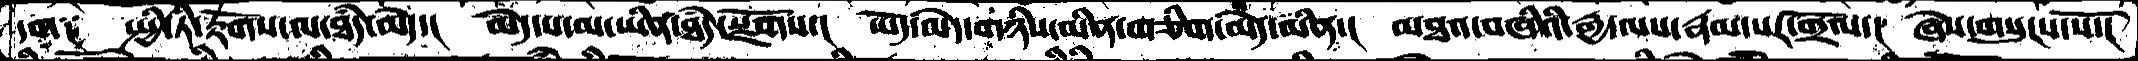དག༑  སྤྱི་ཏི་རྟོགས་ལ་ཐཾད་མེད་།  མེད་པ་མ་ཡིན་ཐཾད་སྫོགས་།  ཡོད་མེད་གཉིས་མིན་གཅིག་མེད་མིན་།  མཐའ་བཞིའི་རྒྱ་ལས་རྣམ་པར་གྲོལ་།  ཞེས་གསུངས་སོ་།
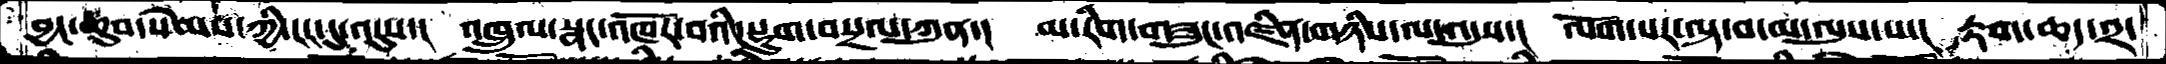བྱང་ཆུབ་སེམས་ཀྱི་ངང་དུ་འདུས་།  འཁྲུལ་སྣང་འཁོར་བའི་སྡུག་བསྔལ་ཀུན་།  མ་རིག་གཟུང་འཛིན་གཉིས་ལ་འདུས་།  ལོག་པར་ལྟ་བ་མ་ལུས་པ་།  རྟག་ཆད་༢་
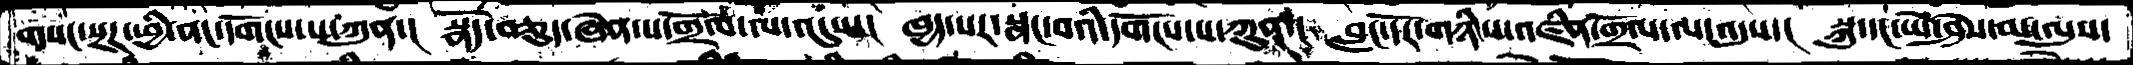གསང་སྔཌ་ཕྱི་ནང་དགོངས་པ་ཀུན་།  སྣོད་བཅུད་ཞེན་པ་གྲོལ་ལ་འདུས་།  ཁྱད་པར་སྣང་བའི་དགོངས་པ་ཀུན་།   བླང་དོར་གཉིས་འཛིན་གྲོལ་ལ་འདུས་།  སྐུ་དང་ཡེ་ཤེས་མ་ལུས་
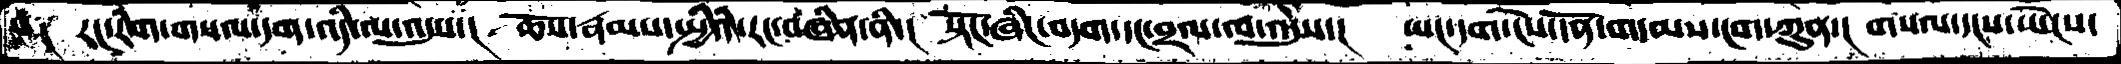་།  རང་རིག་གསལ་དག་འདི་ལ་འདུས་། ཆོས་རྣམས་སྤྱིའི་རང་བཞིན་ནི་། སྟོང་ཞིང་བདག་དང་བྲལ་ལ་འདུས་། ཡང་དག་ངེས་དོན་གདམས་ངག་ཀུན་། གསལ་དངས་ཡེངས་
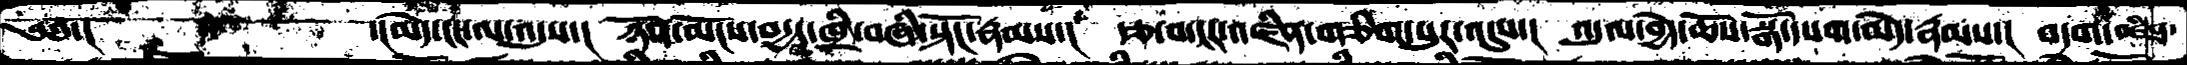༄༅་།        ་།མེད་ངང་ལ་འདུས་།  ཉོན་མོངས་བདྱད་ཁྲི་བཞི་སྟོང་རྣམས་།  རྩ་བ་ངར་འཛིན་གཅིག་པུར་འདུས་།  འདུལ་བྱེད་ཆོས་སྒོ་དཔག་མེད་རྣམས་།  བདག་འཛིན་
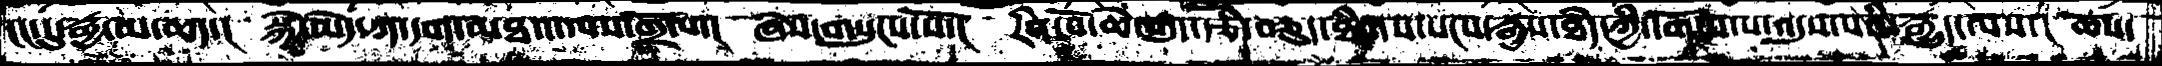ངང་དུ་རྒྱ་མ་ཆད་།  སྐྱེ་མེད་ཀ་དག་མཐའ་ལས་གྲོལ་།  ཞེས་གསུངས་སོ་།  རིན་པོ་ཆེ་བདུད་རྩི་བཅུད་ཐིགས་སངས་རྒྱས་ཐདཾ་ཀྱི་དགོངས་པ་འདུས་པའི་རྒྱུད་ལས་།  ཆོས་
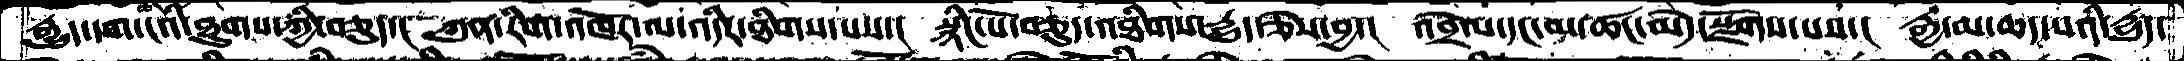རྒྱུད་དག་ངའི་ཐུགས་ཀྱི་བཅུད་།  ཀུན་རིག་འཁོར་ལ་འདིར་ཐིགས་པས་།  སྙིང་པོ་བཅུད་འཐིགས་དྱུད་ཅེས་བྱ་།  འབྲེལ་དང་མ་ཚང་མེད་སྫོགས་པས་།  རྒྱ་མ་ཆད་པའི་དྱུད་
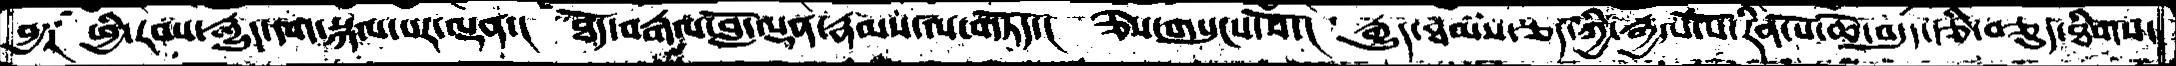བྱ༑  ཕྱི་རབས་རྒྱུད་དག་སྐལ་པར་ལྡན་།  ཐོད་བརྒལ་བློ་ལྡན་རྣམས་ལ་གཏོད་།  ཅེས་གསུངས་སོ་།  རྒྱུད་ཐམས་ཅད་ཀྱི་རྒྱལ་པོ་རིན་པོ་ཆེ་བདུད་རྩི་བཅུད་ཐིགས་
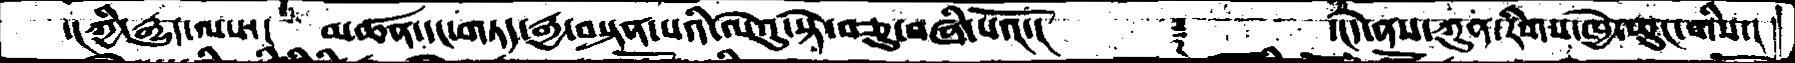་།་ཀྱི་རྒྱུད་ལས་།   མཚན་དང་གཏད་རྒྱ་བསྟན་པའི་ལེའུ་སྟེ་བཅུ་བཞི་པའོ་།     ࿑     ་།དེ་ནས་ཀུན་་རིགས་ཁྱེ་ཆུང་གིས་།
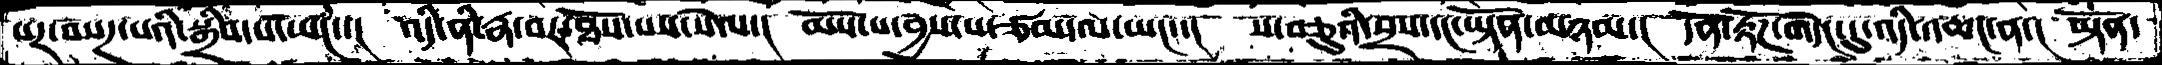པར་བསཌ་པའི་སྒྲིབ་པ་ཡང་་།  འདི་ནི་རྣ་བར་ཐོས་པས་སེལ་།  མོས་པ་བྱས་པ་ཙམ་ལ་ཡང་་།  ས་བཅུའི་སྲས་དང་ཡྟོན་མཉམ་།  དོན་རྟོཌ་གདེང་དུ་འདི་འཆང་ན་།  ཡྟོན་
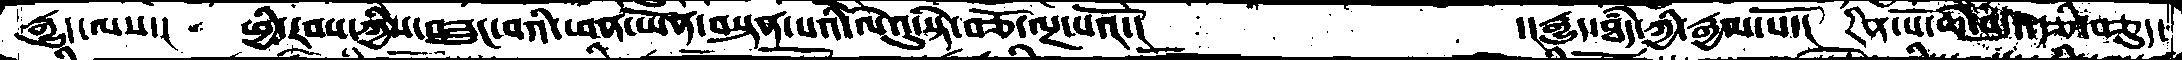རྒྱུད་ལས་།  ཕྱི་རབས་ཀྱིས་བཟུང་བའི་ཕན་ཡོན་བསྟན་པའི་ལེའུ་སྟེ་བཅོ་ལྔ་པའོ་།       ་།རྒྱུད་ཐདཾ་ཀྱི་རྒྱལ་པོ་།   རིན་པོ་ཆེ་བདུད་རྩི་བཅུད་
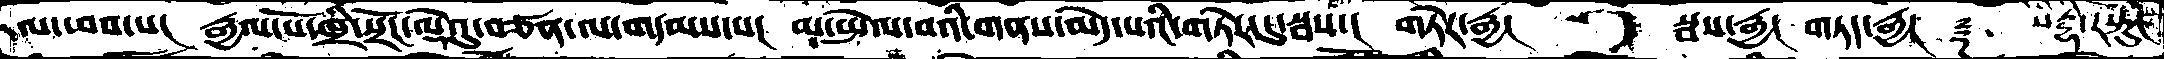ལ་ཕབ་པ། རྒྱལ་པོ་ཁྲི་སྲོང་ལྡེའུ་བཙན་ལ་གདམས་པ། མ་སྤེལ་བའི་གནས་མེད་པའི་གཏེར་དུ་སྦས་། གཏེར་རྒྱ། སྦས་རྒྱ། གཏད་རྒྱ། ༈ སིདྡྷི་རསྟུ།
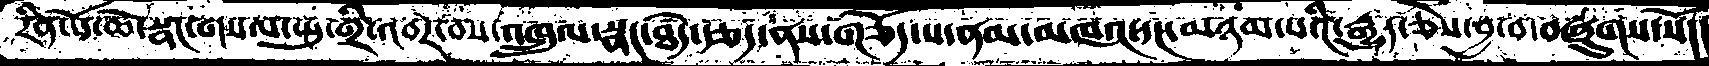རིན་པོ་ཆེ་སྣང་གསལ་སྤུ་གྲི་འབར་བས་འཁྲུལ་སྣང་ཐདཾ་རྩད་ནས་གཅོད་པ་ནམ་མཁའ་དང་མཉམ་པའི་རྒྱུད་ཅེས་བྱ་བ་བཞུགས་སོ།།།
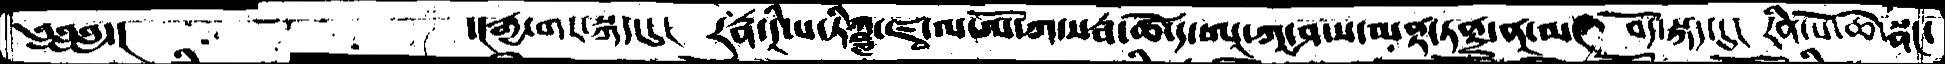༄༅༅་།     ་།རྒྱ་གར་སྐད་དུ།  རཏྣ་དཱི་པ་ཏིཀྵྞ་ཛྭ་ལ་ཨོ་ཀ་སརྦ་ཚེ་ད་ཨཱ་ཀཱ་ཤ་ས་མནྟ་ཏནྟྲ་ནཱ་མ་།  བོད་སྐད་དུ།  རིན་པོ་ཆེ་སྣང་
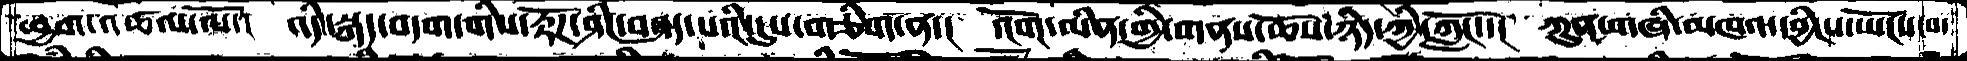ཕྱག་འཚལ་ལོ་།  འདི་སྐད་བདག་གིས་རྟོཌ་ཤིང་བཤད་པའི་དུས་གཅིག་ན་།  འོག་མིན་གྱི་གནས་ཆོས་ཉིད་ཀྱི་ཀློང་་།   ཀུན་གཞི་མཁའ་དབྱིངས་ཡོངས་བ་
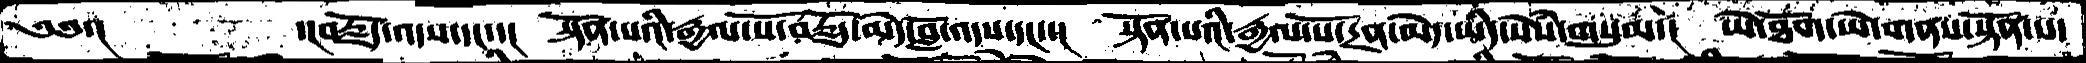༄༅་།       ་།བརྗོད་འདས་དང་་།  སྟོན་པའི་རྒྱལ་པོ་བརྗོད་མེད་བློ་འདས་དང་་།  སྟོན་པའི་རྒྱལ་པོ་དྲན་མེད་ཡིད་སེསཾ་གསུམ་།  ཡེ་ཐོག་ཡེ་གནས་སྟོན་པ་
